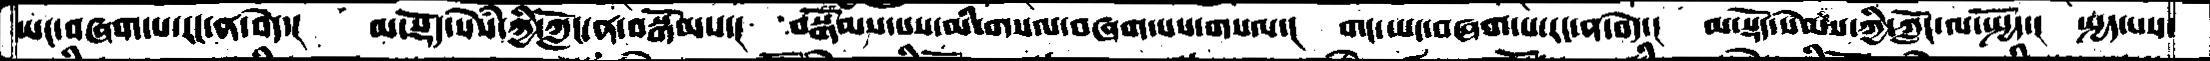ཡང་བཞག་པ་རང་ན་བདེ་།  མ་སྡོད་སེཾས་ཀྱི་ཀློང་ན་བསྒོམས་།  བསྒོམས་པས་མི་གསལ་བཞག་པས་གསལ་།  གང་ཡང་བཞག་པ་རང་ན་བདེ་།  མ་སྡོད་སེམས་ཀྱི་ཀློང་ལ་སྤྱོད་།  སྤྱད་པས་
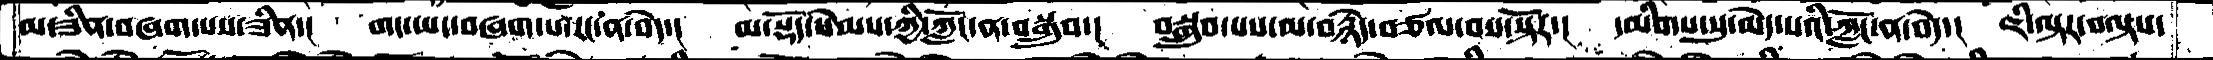མ་ཟིན་བཞག་པས་ཟིན་།  གང་ཡང་བཞག་པ་རང་ན་བདེ་།  མ་སྡོད་སེམས་ཀྱི་ཀློང་ན་བསྒྲུབ་།  བསྒྲུབ་པས་མ་བརྙེད་བཙལ་བས་སྟོར་།  དམིགས་སུ་མེད་པའི་ཀློང་ན་བདེ་།  ཇི་ལྟར་བལྟས་
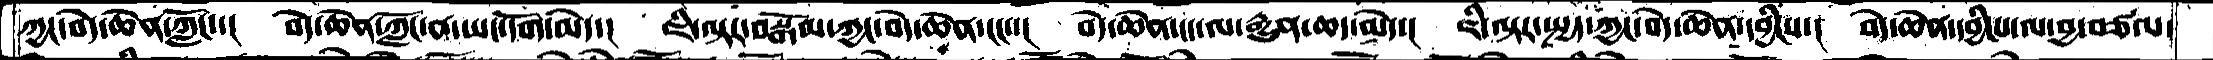ཀྱང་བདེ་ཆེན་ཀློང་་།  བདེ་ཆེན་ཀློང་ན་ཡང་དོག་མེད་།  ཇི་ལྟར་བསྒོམ་ཀྱང་བདེ་ཆེན་ངང་་།  བདེ་ཆེན་ངང་ལ་རྒྱུན་ཆད་མེད་།  ཇི་ལྟར་སྤྱད་ཀྱང་བདེ་ཆེན་དབྱིངས་།  བདེ་ཆེན་དབྱིངས་ལ་བྱ་བཙལ་
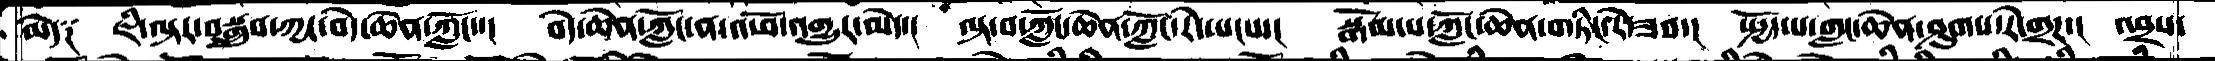མེད༑  ཇི་ལྟར་བསྒྲུབ་ཀྱང་བདེ་ཆེན་ཀློང་་།  བདེ་ཆེན་ཀློང་ན་འཕོ་འགྱུར་མེད་།  ལྟ་བ་ཀློང་ཆེན་ཀློང་རེ་སངས་།  སྒོམ་པ་ཀློང་ཆེན་གཏིང་རེ་ཟབ་།  སྤྱོད་པ་གླང་ཆེན་ཤུགས་རེ་གྲཌ་།  འབྲས་
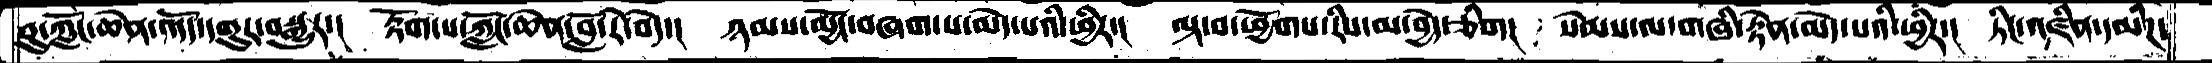བུ་ཀློང་ཆེན་འདོད་དགུར་བསྒྱུར་།  རྟོག་པ་ཀློང་ཆེན་བློ་རེ་བདེ་།  ཉམས་མྱོང་བཞག་པ་མེད་པའི་ཕྱིར་།  ལྟ་བ་ཕྱོགས་རིས་མ་བྱེད་ཅིག།  སེམས་ལ་གཞི་རྟེན་མེད་པའི་ཕྱིར་།  ཏིང་འཛིན་དམིཌ་
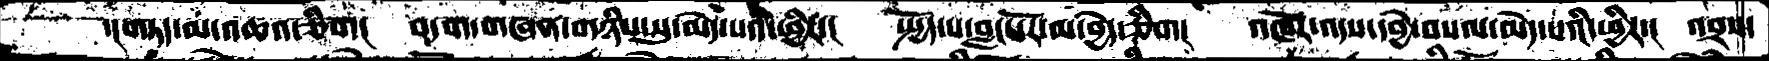་།གཏད་མ་འཆའ་ཅིག།   བདག་གཞན་གཉིས་སུ་མེད་པའི་ཕྱིར་།  སྤྱོད་པ་བླང་དོར་མ་བྱེད་ཅིག།  འཁོར་འདས་དབྱེ་བསལ་མེད་པའི་ཕྱིར་།  འབྲས་
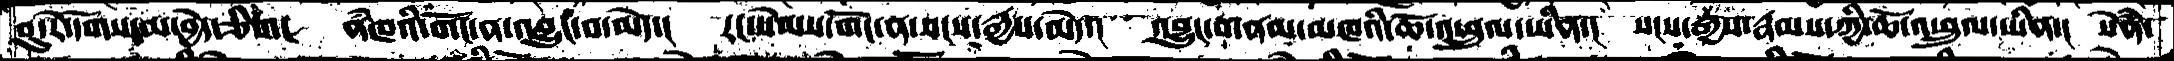བུ་རེ་དགོས་མ་བྱེད་ཅིག།  ནཾཁའི་གོང་ན་འབྱུང་བ་མེད་།  རང་སེམས་གོང་ན་སངས་རྒྱས་མེད་།  འབྱུང་བ་ནམ་མཁའི་ཆོ་འཕྲུལ་ཡིན་།  སངས་རྒྱས་རྣམས་ཀྱི་ཆོ་འཕྲུལ་ཡིན་།  སེཾན་
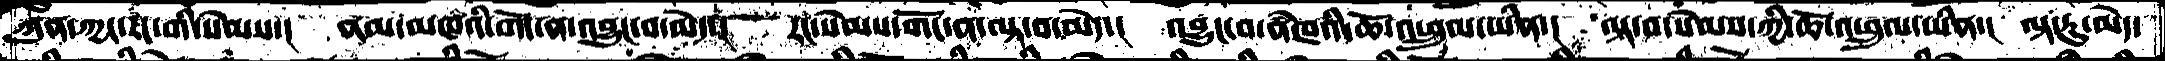ཀུན་ཀྱང་རང་གི་སེམས་།  ནམ་མཁའི་གོང་ན་འབྱུང་བ་མེད་།  རང་སེམས་གོང་ན་ལྟ་བ་མེད་།  འབྱུང་བ་ནཾཁའི་ཆོ་འཕྲུལ་་ཡིན་།  ལྟ་བ་སེམས་ཀྱི་ཆོ་འཕྲུལ་ཡིན་།  ལྟ་རུ་མེད་
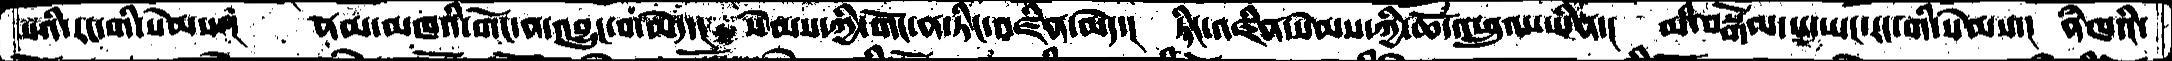པའི་རང་གི་སེམས་།  ནམ་མཁའི་གོང་ན་འབྱུང་བ་མེད་།  སེམས་ཀྱི་གོང་ན་ཏིང་འཛིན་མེད་།  ཏིང་འཛིན་སེམས་ཀྱི་ཆོ་འཕྲུལ་ཡིན་།  མི་བསྒོམ་པ་ཡང་རང་གི་སེམས་། ནཾཁའི་
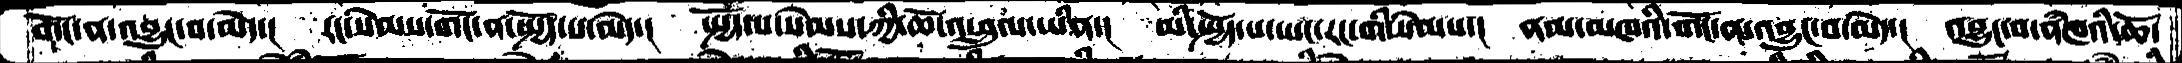གོང་ན་འབྱུང་བ་མེད་།  རང་སེམས་གོང་ན་སྤྱོད་པ་མེད་།  སྤྱོད་པ་སེམས་ཀྱི་ཆོ་འཕྲུལ་ཡིན་།  མི་སྤྱོད་པ་ཡང་རང་གི་སེམས་།  ནམ་མཁའི་གོང་ན་འབྱུང་བ་མེད་།  འབྱུང་བ་ནཾཁའི་ཆོ་
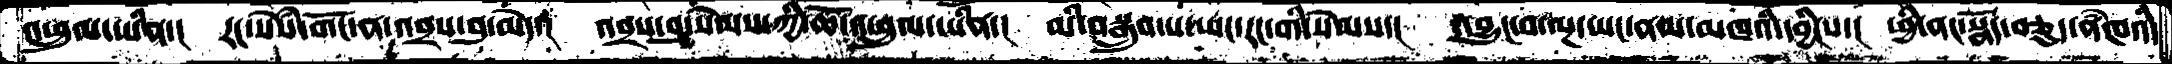འཕྲུལ་་ཡིན་།  རང་སེཾས་གོང་ན་འབྲས་བུ་མེད་།  འབྲས་བུ་སེམས་ཀྱི་ཆོ་འཕྲུལ་ཡིན་།  མི་བསྒྲུབ་པ་ཡང་རང་གི་སེམས་།  འབྱུང་བ་ལྔ་ཡང་ནམ་མཁའི་དབྱིངས་།  ཕྱི་ནང་སྣོད་བཅུད་ནཾཁའི་
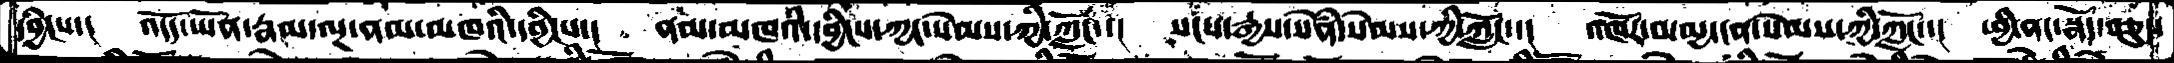དབྱིངས་།  འདོད་ཡོན་རྣམ་ལྔ་ནམ་མཁའི་དབྱིངས་།  ནམ་མཁའི་དབྱིངས་ཀྱང་སེམས་ཀྱི་ཀློང་་།  སངས་རྒྱས་སེཾན་སེམས་ཀྱི་ཀློང་་།  འཁོར་བ་མྱ་ངན་སེམས་ཀྱི་ཀློང་་།  ཕྱི་ནང་སྣོད་བཅུད་
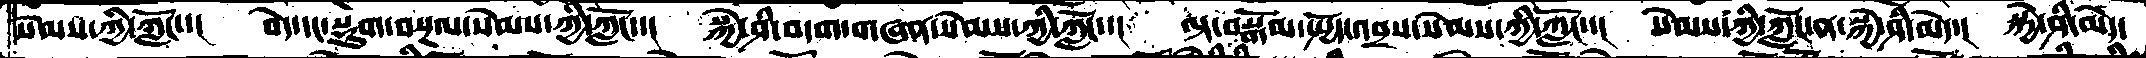སེམས་ཀྱི་ཀློང་་།  བདེ་དང་སྡུག་བསྔལ་སེམས་ཀྱི་ཀློང་་།  སྐྱེ་ཤི་བདག་གཞན་སེམས་ཀྱི་ཀློང་་།  ལྟ་བསྒོམ་སྤྱོད་འབྲས་སེམས་ཀྱི་ཀློང་་།  སེམས་ཀྱི་ཀློང་ན་སྐྱེ་ཤི་མེད་།  སྐྱེ་ཤི་མེད་
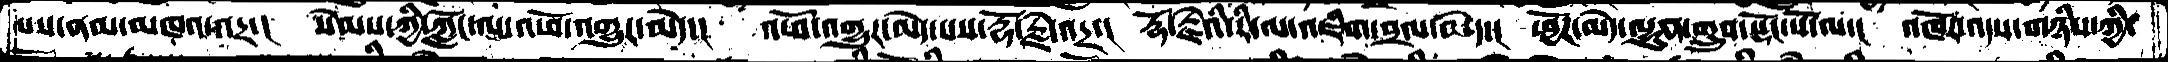པས་ནམ་མཁའ་འདྲ་།  སེམས་ཀྱི་ཀློང་ལ་འཕོ་འགྱུར་མེད་།  འཕོ་འགྱུར་མེད་པས་རྡོ་རྗེ་འདྲ་།  རྡོ་རྗེའི་རི་ལ་འཇིག་བྲལ་མེད་།  ཕྱོཌ་མེད་ལྷུན་གྲུབ་སྡོང་པོ་ལ་།  འཁོར་འདས་གཉིས་ཀྱི་
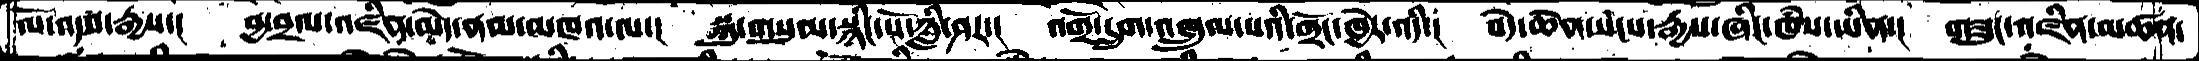ལོ་འདབ་རྒྱས་།  བྱ་བྲལ་འཛིན་མེད་ནམ་མཁའ་ལ་།  སྐུ་གསུམ་སྙིང་པོ་ཉླི་ཤར་།  འགྲོ་དྲུག་འཁྲུལ་པའི་གྲོང་ཁྱེར་འདི་།  བདེ་ཆེན་སངས་རྒྱས་ཞིང་ཁཾས་ཡིན་།  གཟུང་འཛིན་མཚན་
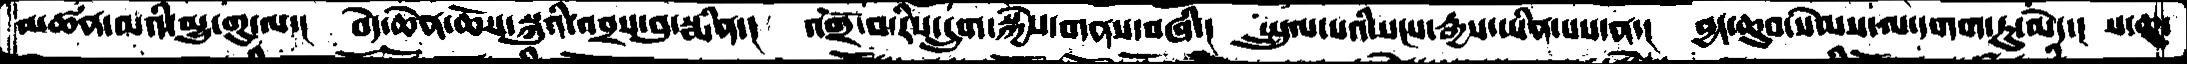མཚན་མའི་མྱུ་གུ་ལ་།  བདེ་ཆེན་ཆོས་སྐུའི་འབྲས་བུ་སྨིན་།  འགྲོ་བ་རིས་དྲུག་སྐྱེས་གནས་བཞི་།  སྤྲུལ་པའི་སངས་རྒྱས་ཡིན་པས་ན་།  བྱང་ཆུབ་སེམས་ལ་དགག་ཏུ་མེད་།  ས་ཆུ་
